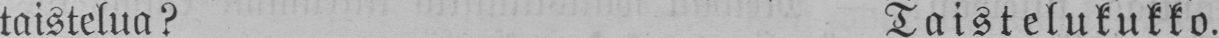taistelua? Taistelukukko.
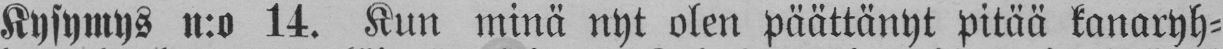Kysymys n:o 14. Kun minä nyt olen päättänyt pitää kanaryh-
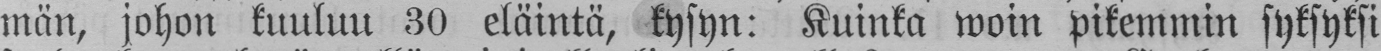män, johon kuuluu 30 eläintä, kysyn: Kuinka woin pikemmin syksyksi
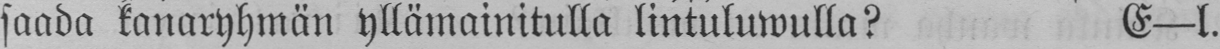saada kanaryhmän yllämainitulla lintuluwulla? E—l.
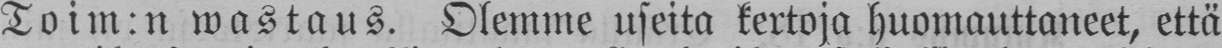Toim:n wastaus. Olemme useita kertoja huomauttaneet, että
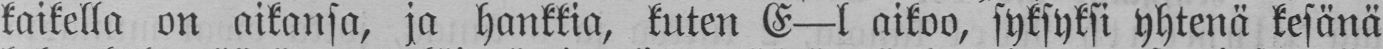kaikella on aikansa, ja hankkia, kuten E —l aikoo, syksyksi yhtenä kesänä
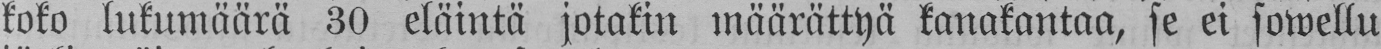koko lukumäärä 30 eläintä jotakin määrättyä kanakantaa, se ei sowellu
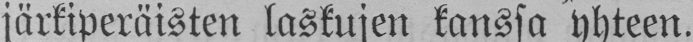järkiperäisten laskujen kanssa yhteen.
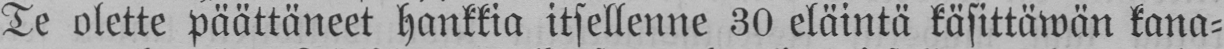Te olette päättäneet hankkia itsellenne 30 eläintä käsittäwän kana-
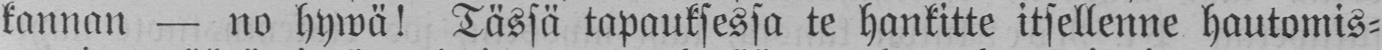kannan — no hywä! Tässä tapauksessa te hankitte itsellenne hautomis-
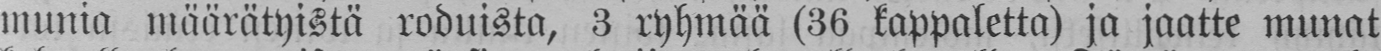munia määrätyistä roduista, 3 ryhmää (36 kappaletta) ja jaatte munat
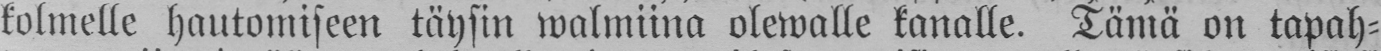kolmelle hautomiseen täysin walmiina olewalle kanalle. Tämä on tapah-
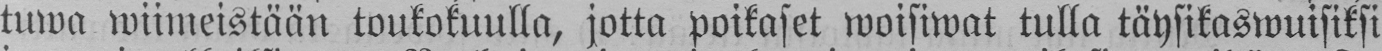tuwa wiimeistään toukokuulla, jotta poikaset woisiwat tulla täysikaswuisiksi
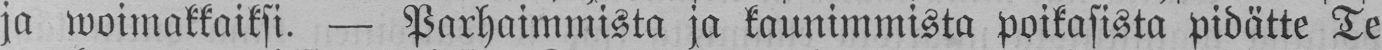ja woimakkaiksi. — Parhaimmista ja kaunimmista poikasista pidätte Te
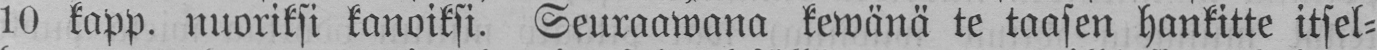10 kapp. nuoriksi kanoiksi. Seuraawana kewänä te taasen hankitte itsel-
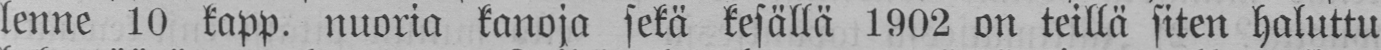lenne 10 kapp. nuoria kanoja sekä kesällä 1902 on teillä siten haluttu
